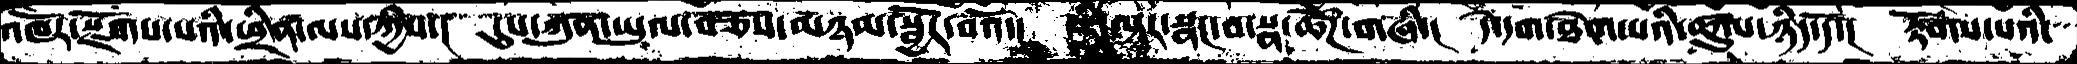འཁོར་སྫོགས་པའི་ཕྲིན་ལས་ཀྱིས་།  དུས་ཀུན་ཡུལ་བཅོས་མཉམ་སྦྱོར་བའོ་།  ཇི་ལྟར་སྣང་བ་སྣ་ཚོཌ་གཞི་།  དེ་དག་ཐེག་པའི་ཚུལ་ཉིད་དོ་།  རྟོགས་པའི་་
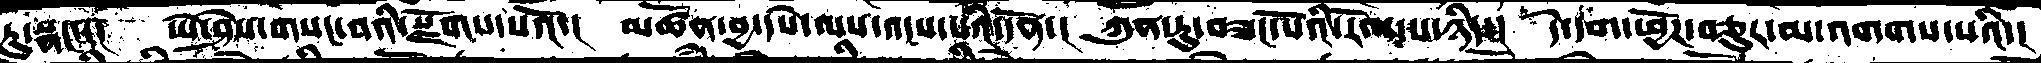ཏུ་སྣང་་།  ཡེ་ཤེས་གསང་བའི་སྫོགས་པའོ་།  མཚོན་བྱ་དཔེ་ལས་འདས་པའི་དོན་།  ཀུན་ཏུ་བཟང་པོའི་རོལ་པ་ཉིད་།  དེ་དག་ཕྱོཌ་བཅུར་མ་འགགས་པའི་།
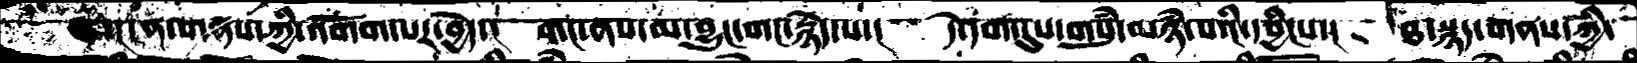་།ངན་གནས་ཀྱི་འགོག་པར་བྱེད་།  གང་ནས་མ་བྱུང་གང་རྙེད་པ་།  དེ་དག་དུས་གསུཾ་མཉཾ་པའི་དབྱིངས་།  ཐ་སྙད་གནས་ཀྱི་
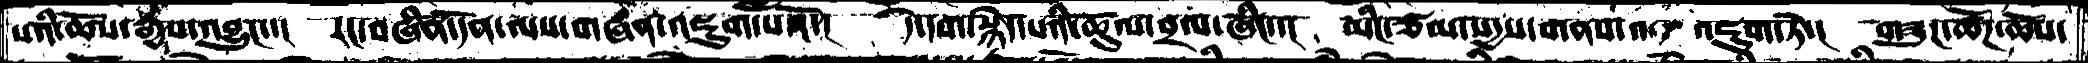པའི་ཆོས་རྒྱས་འབྱུང་་།  རང་བཞིན་དོན་ལས་གཞན་འཇུག་པའོ་།  དེ་དག་སྙེད་པའི་ཚུལ་བྲལ་ཞིང་་།  མིང་ཙམ་སདྱས་གནས་འཇུག་ཏེ་།  གཟུཌ་ཚོཌ་ཆོས་
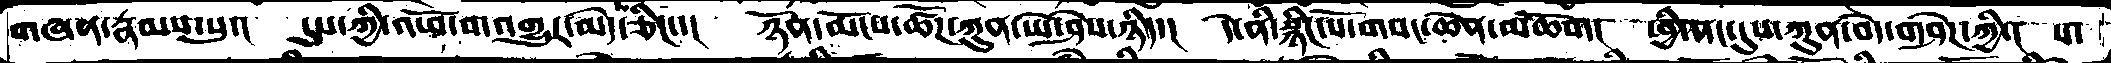གཞན་རྣམས་སུ་།  དུས་ཀྱི་འཕོ་བ་འགྱུར་མེད་ཅིང་་།  ཉོན་མོངས་ཚོཌ་ཀུན་ཡེ་ཤེས་ཉིད་།  དེ་ནི་སྙིང་པོ་གསང་ཆེན་མཆོག།  ཕྱི་ནང་དུས་ཀུན་བདེ་གཤེཌ་ཀྱི་།  ས་
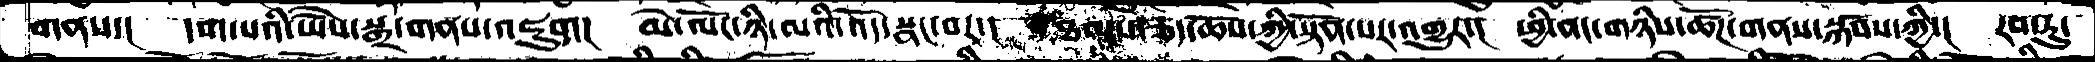གནས་།  དག་པའི་ཡཻས་སྒྲ་གནས་འཇུག།  མེ་ལོང་ཉི་མའི་འོད་སྣང་བར་།  ཐམས་ཅད་ཆོས་ཀྱི་སྟོན་པར་འགྱུར་།  ཕྱི་ནང་གཉིས་ཚོཌ་གནས་སྐབས་ཀྱི་།  རབ་ཏུ་
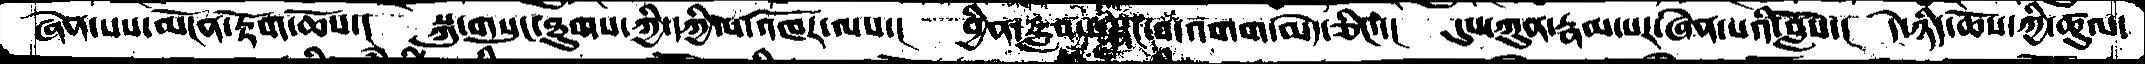ཞེན་པས་མངོན་རྟོག་ཆོས་།  སྐུ་གསུང་ཐུགས་ཀྱི་དཀྱིལ་འཁོར་ལས་།  བྱིན་རླབས་སྣང་བ་འགག་མེད་ཅིང་་།  དུས་ཀུན་རྣམ་པར་ཞེན་པའི་བློས་།  དེ་ཉིད་ཆོས་ཀྱི་ཚུལ་
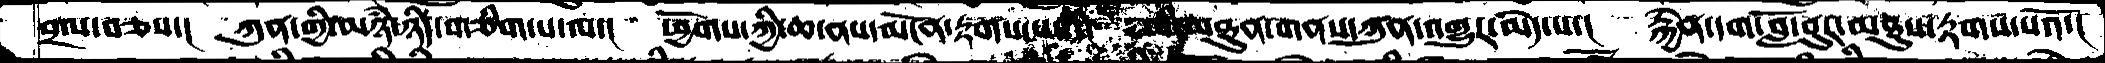བྲལ་བཅས་།  ཀུན་གྱི་མཉཾ་ཉིད་གཅིག་པ་ལ་།  ཕྱོགས་ཀྱི་ཆ་ནས་མངོན་རྟགས་པའི་།  མི་མཐུན་གནས་ཀུན་འགྱུར་མེད་པ་།  རྐྱེན་དག་བློ་བུར་མཐུས་རྟགས་པའོ་།
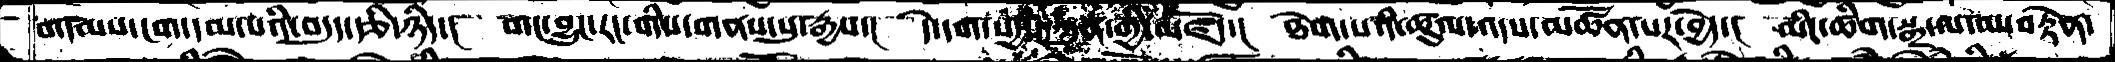གདམས་ངག་དམ་པའི་བདུད་རྩི་ཉིད་།  གང་བྱུང་རང་གིས་གནས་སུ་རྒྱས་།  དེ་དག་སདྱས་ཀུན་གྱི་མཛོད་།  ཐེག་པའི་ཚུལ་འདས་མཚོན་པར་བྱེད་།  མིང་ཚིག་སྒྲ་ལ་མ་བརྟེན་
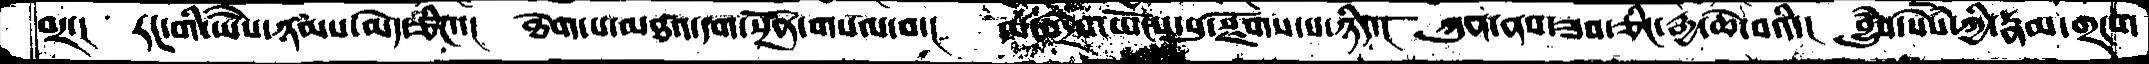བར་།  རང་གི་ཡཻས་ཉམས་མེད་ཅིང་་།  ཐེག་པ་མཐའ་དག་སྔོན་གསལ་བ་།  མ་འདྲེས་ཡོངས་སུ་སྫོགས་པ་ཉིད།  ཀུན་ནས་ཟབ་ཅིང་རྒྱ་ཆེ་བའི་།  བྱུཾབ་སེཾས་ཀྱི་རྣམ་གྲངས་
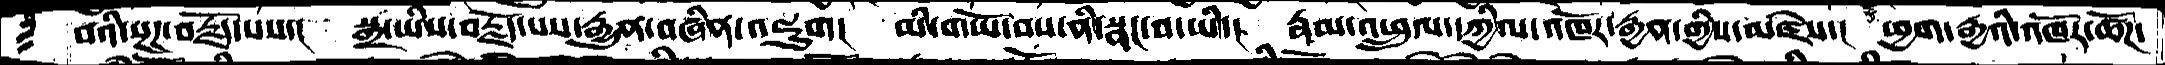བའི་སྔཌ་བརྗོད་པས་།  སྒྲ་ཡིས་བརྗོད་པས་རྒྱུན་བཞིན་འཇུག།  མི་གཡོ་བས་ནི་སྣང་བ་ཡི་།  རྣམ་འཕྲུལ་དཀྱིལ་འཁོར་རྒྱན་གྱིས་མཛེས་།  ཕྱག་རྒྱའི་འཁོར་ཚོཌ་
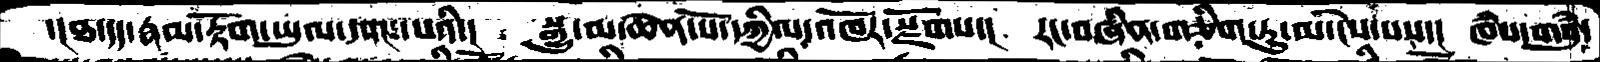་།ཐ་དད་རྣམ་རྟོག་ཡུལ་དག་པའི་།  སྒྱུ་མ་ཆེན་པོ་དཀྱིལ་འཁོར་སྫོགས་།   རང་བཞིན་གཅིག་ཏུ་མ་ངེས་པས་།  ཁཾས་གསུཾ་
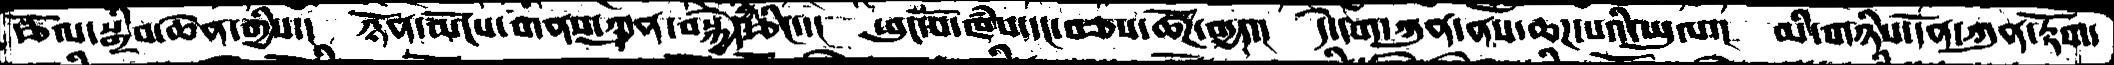རྩོལ་སྒྲིབ་ཆེན་གྱིས་།  ཉོན་མོངས་གནས་ཀུན་བསྐྱེད་ཅིང་་།  ཕུང་པོ་ཁཾས་དང་བཅས་ཚོཌ་བདྱད་།  དེ་དག་ཀུན་ནས་ཆཌ་པའི་ཡུལ་།  མི་གཉིས་དོན་ཀུན་རྟོག་
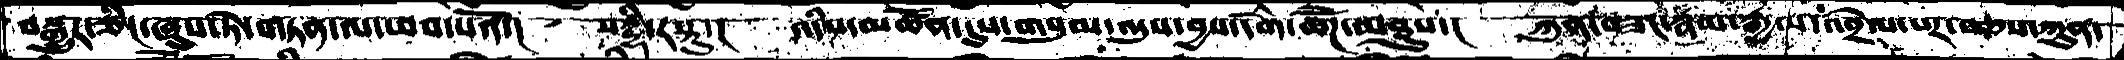བསྒྱུར་ཅིང་ཞུས་ཏེ་གཏན་ལ་ཕབ་པའོ་།   སཌྷི་རསྟུ་།  འདིས་མཚོན་དུས་གསུམ་འདུས་བྱས་དགེ་ཚོཌ་མཐུས་།   ཀུན་བཟང་རྣམ་རྒྱལ་འབྲེལ་པར་བཅས་ཀུན་
